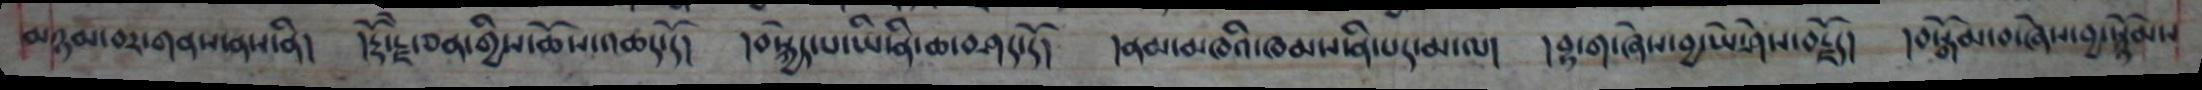མཉམ་བར་གནས་ནས་ནི། །རྡོ་རྗེ་ཅན་གྱིས་ཆོས་འཆད་དོ། །བསྐྱེད་པ་ཡི་ནི་ཆ་བཤད་དོ། །ནམ་མཁའི་ཁམས་ནི་པད་མ་ལ། བྷ་ག་ཞེས་བྱ་ཡེ་ཤེས་བརྗོད། །བསྒོམ་བ་ཞེས་བྱ་སྙོམས
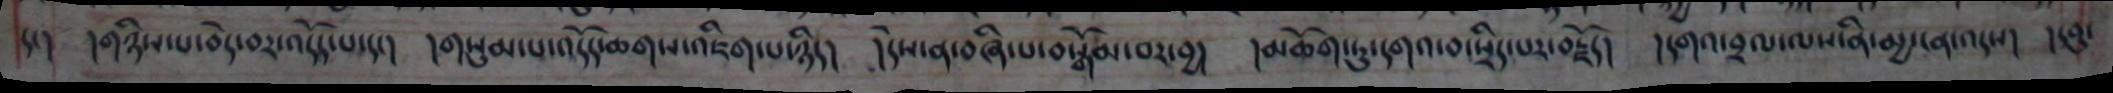དང། །གཉིས་པ་བདེ་བར་འདོད་པ་དང། །གསུམ་པ་འདོད་ཆགས་འཇིག་པ་ཉིད། །དེས་ན་བཞི་པ་བསྒོམ་བར་བྱ། །མཆོག་ཏུ་དགའ་བ་སྲིད་པར་བརྗོད། །དགའ་བྲལ་ལས་ནི་མྱ་ངན་འདས། །དབུ་
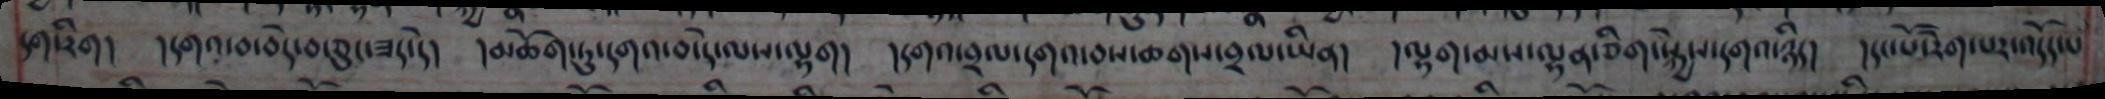དག་རིག། །དགའ་བ་བདེ་བ་ཅུང་ཟད་དེ། །མཆོག་ཏུ་དགའ་བ་དེ་ལས་ལྷག། །དགའ་བྲལ་དགའ་བས་ཆགས་བྲལ་ཡིན། །ལྷག་མས་ལྷན་ཅིག་སྐྱེས་དགའ་ཉིད། །དང་པོ་རེག་པར་འདོད་པ
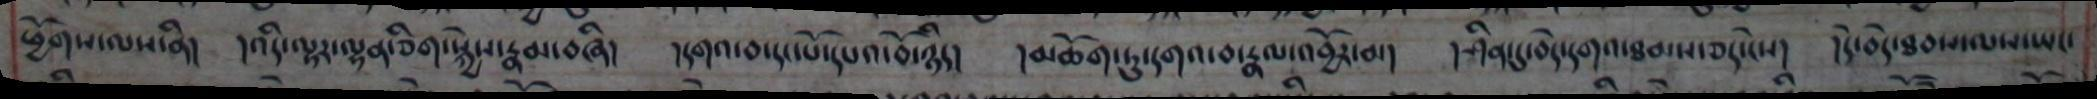ཕྱོགས་ལས་ནི། །འདི་ལྟར་ལྷན་ཅིག་སྐྱེས་རྣམ་བཞི། །དགའ་བ་དང་པོ་དཔའ་བོ་ཉིད། །མཆོག་ཏུ་དགའ་བ་རྣལ་འབྱོར་མ། །ཤིན་དུ་བདེ་དགའ་ཐམས་ཅད་ངེས། །དེ་བདེ་ཐབས་ལས་ཡང་
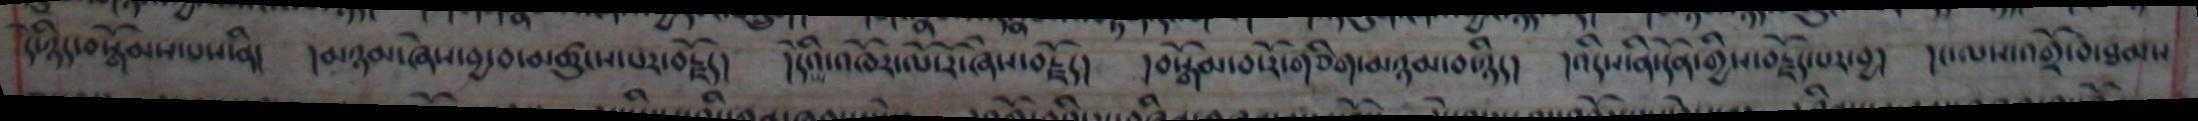དེ་ཉིད་བསྒོམས་པས་ནི། །མཉམ་ཞེས་བྱ་བ་མཚུངས་པར་བརྗོད། །དེའི་འཁོར་ལོ་རེ་ཞེས་བརྗོད། །བསྒོམ་བ་རོ་གཅིག་མཉམ་བ་ཉིད། །འདིས་ནི་དོན་གྱིས་བརྗོད་པར་བྱ། །ང་ལས་འགྲོ་བ་ཐམས
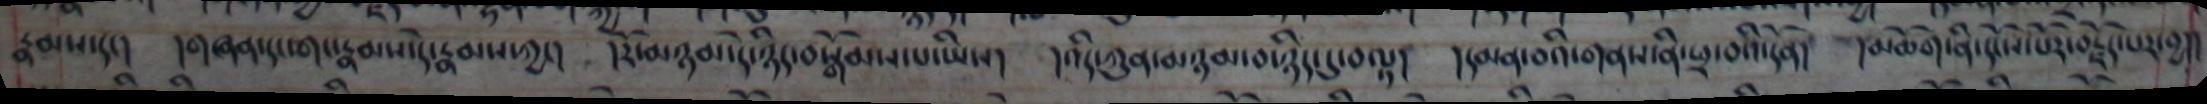རྣམས་དང། །གཞན་དང་གང་རྣམས་དེ་རྣམས་ཀྱང། །རོ་མཉམ་དེ་ཉིད་བསྒོམས་པ་ཡིས། །འདི་ཀུན་མཉམ་བ་ཉིད་དུ་བལྟ། །དམན་བའི་གནས་ནི་ཕྲ་བའི་དོན། །མཆོག་ནི་དངོས་པོར་བརྗོད་པར་བྱ།།
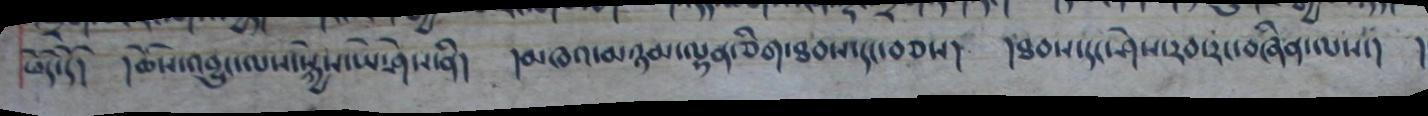ཕོད་དོ། །ཆོས་འབྱུང་ལས་སྐྱེས་ཡེ་ཤེས་ནི། །མཁའ་མཉམ་ལྷན་ཅིག་ཐབས་དང་བཅས། །ཐབས་དང་ཤེས་རབ་རང་བཞིན་ལས་། །
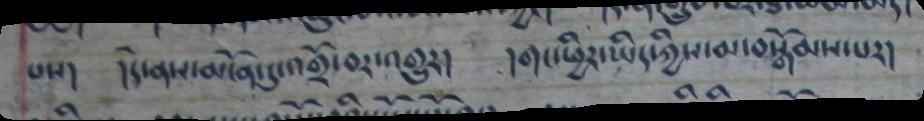པས། །དེ་ནས་མངོན་དུ་འགྲོ་བར་འགྱུར། །གང་ཕྱིར་ཡིད་ཀྱིས་མ་བསྒོམས་པར།
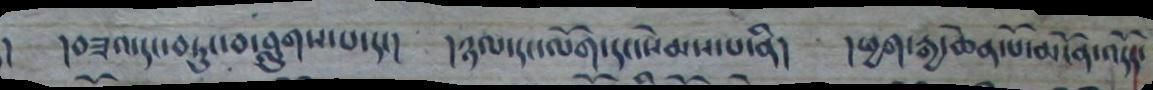། །བཟའ་དང་བཏུང་བ་བླུགས་པ་དང། །ཉལ་དང་ལོག་དང་སེམས་པ་ནི། །ཕྱག་རྒྱ་ཆེན་པོ་མངོན་འདོད་
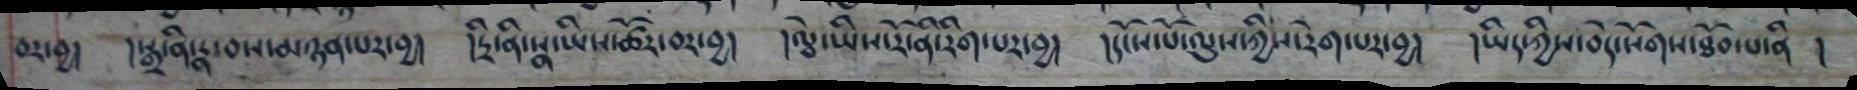བར་བྱ། །སྒྲ་ནི་རྣ་བས་མཉན་པར་བྱ། །དྲི་ནི་སྣ་ཡིས་ཚོར་བར་བྱ། །ལྕེ་ཡིས་རོ་ནི་རིག་པར་བྱ། །དངོས་པོ་ལུས་ཀྱིས་རེག་པར་བྱ། །ཡིད་ཀྱིས་བདེ་སོགས་ཐོབ་པ་ནི །
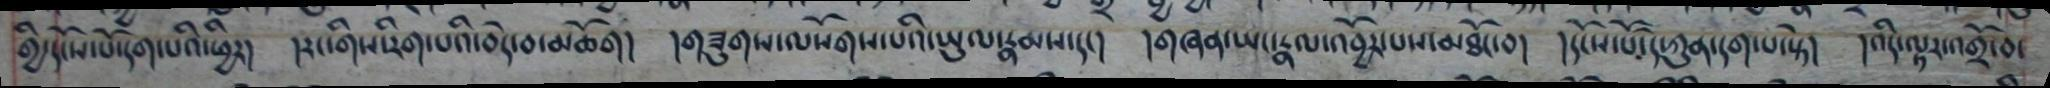གྱི་དངོས་པོ་དག་པའི་ཕྱིར། །རང་གིས་རིག་པའི་བདེ་བ་མཆོག། །གཟུགས་ལསོགས་པའི་ཡུལ་རྣམས་དང། །གཞན་ཡང་རྣལ་འབྱོར་པས་མཐོང་བ། །དངོས་པོ་དེ་ཀུན་དག་པ་སྟེ། །འདི་ལྟར་འགྲོ་བ་
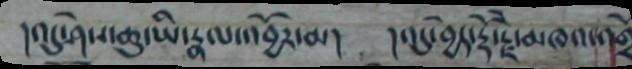།འདུ་ཤེས་ཆུ་ཡི་རྣལ་འབྱོར་མ། །འདུ་བྱེད་རྡོ་རྗེ་མཁའ་འགྲོ
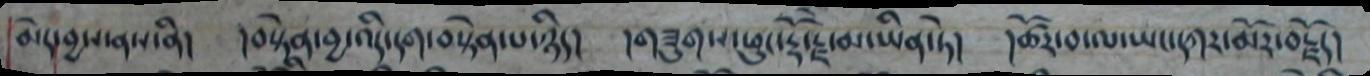མེད་བྱས་ནས་ནི། །བསྟེན་བྱ་འདི་དག་བསྟེན་པ་ཉིད། །གཟུགས་ཕུང་རྡོ་རྗེ་མ་ཡིན་ཏེ། །ཚོར་བ་ལ་ཡང་དཀར་མོར་བརྗོད།
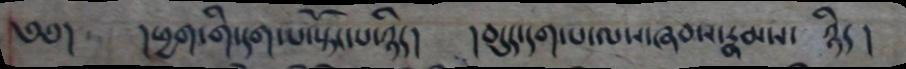༄༅། །ཕྱག་གི་དག་པ་སྟོང་པ་ཉིད། །བདུད་དག་པ་ལས་ཞབས་རྣམས་ ཉིད།
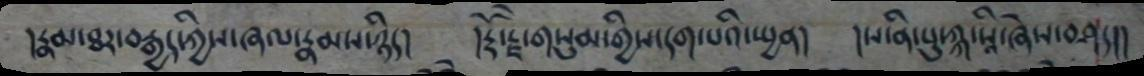།རྣམ་ཐར་བརྒྱད་ཀྱིས་ཞལ་རྣམས་ཉིད། །རྡོ་རྗེ་གསུམ་གྱིས་དག་པའི་སྤྱན། །ས་ནི་པུ་ཀྐ་སཱི་ཞེས་བཤད།།
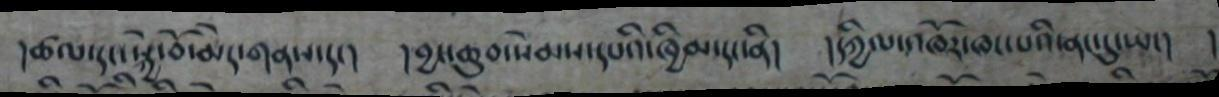།ཚལ་དང་སྐྱེ་བོ་མེད་གནས་དང། །བྱང་ཆུབ་སེམས་དཔའི་ཁྱིམ་དང་ནི། །དཀྱིལ་འཁོར་ཁང་པའི་ནང་དུ་ཡང། །
